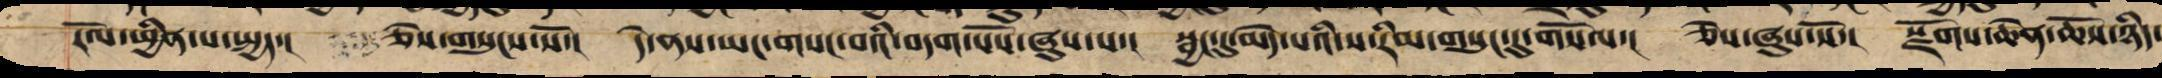རོལ་ཕྱིན་པ་སྤྱད་། ཅེས་གསུངས་སོ་། དེ་ནས་ཡང་གསང་བའི་བདག་པོས་ཞུས་པ་། སྦྱང་དུ་མེད་པའི་ས་རིམ་གསུང་དུ་གསོལ་། ཅེས་ཞུས་སོ་། སྫོགས་ཆེན་ཆོས་ཉིད་
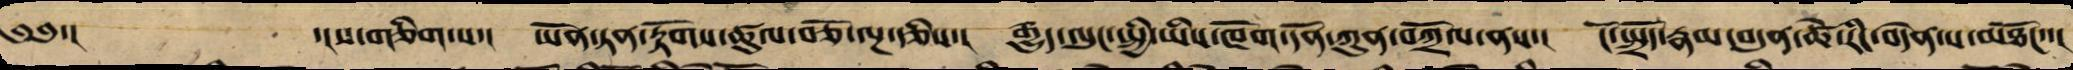༄༅་། ་།ས་གཅིག་པ་། ཡོན་ཏན་རྟོགས་ཚུལ་བཅོ་ལྔ་རྩིས་། རྒྱུད་ལུང་སྤྱི་ཡིས་ཁོག་དོན་ཀུན་བཀྲོལ་ནས་། ངོ་སྤྲོད་རྣམ་བདུན་ཚེ་རིང་བདེན་པ་མཐོང་་།
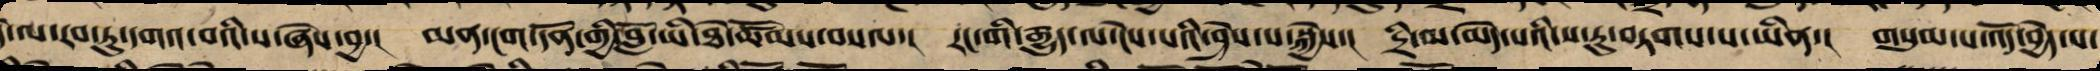དེ་ལ་རབ་ཏུ་དགའ་བའི་ས་ཞེས་བྱ་། མན་ངག་དོན་གྱི་བློ་ཡི་ཐེ་ཚོམས་བསལ་། རང་གི་རྒྱུད་ལ་ངེས་པའི་ཤེས་པ་སྐྱེས་། དྲི་མ་མེད་པའི་ས་རུ་བཏགས་པ་ཡིན་། གསུམ་པ་འོད་བྱེད་པ་
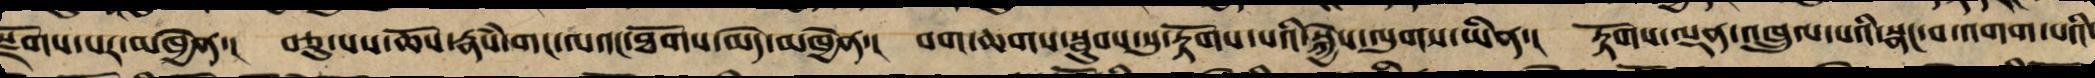སྫོགས་པར་མཁྱེན་། བཅུ་པ་ཆོས་རྣཾས་གང་ལའང་ཐོགས་མེད་མཁྱེན་། བག་ཆགས་སྦུབས་སུ་རྟོགས་པའི་སྐྱེས་ལུགས་ཡིན་། རྟོགས་ལྡན་འཁྲུལ་པའི་སྣང་བ་འགག་པའི་
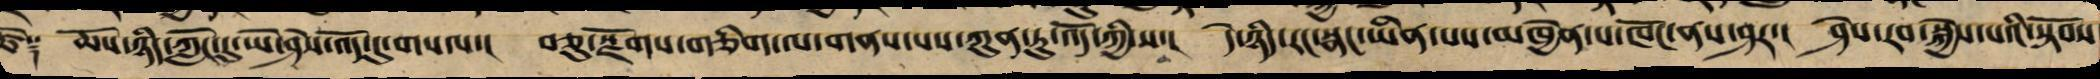ཚེ༑ ཆོས་ཉིད་ཀློང་དུ་ཡེ་ཤེས་འོད་དུ་གསལ་། བཅུ་སྫོགས་གཅིག་ལ་གནས་པས་ཀུན་ཏུ་འོད་ཀྱི་ས་། དེ་ཉིད་རང་སྣང་ཡིན་པས་མཁྱེན་པ་ཁོང་ནས་ཤར་། ཤེས་རབ་སྐྱེས་པའི་སྟོབས་
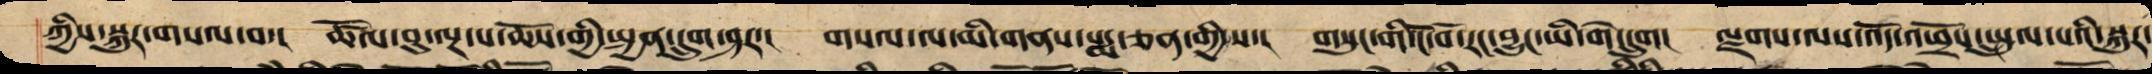ཀྱིས་སྐུར་གསལ་བ་། ཚོལ་བུ་ལྔ་པ་ཆོས་ཀྱི་སྤྱན་དྲུག་ཤར་། གསལ་ལ་མི་གནས་པདྨ་ཅན་གྱི་ས་། གསུང་གི་ངོ་བོ་རང་བྱུང་ཡི་གེ་དྲུག། ལྗགས་ལས་འོད་འཕྲོས་སྤྲུལ་པའི་སྐུར་
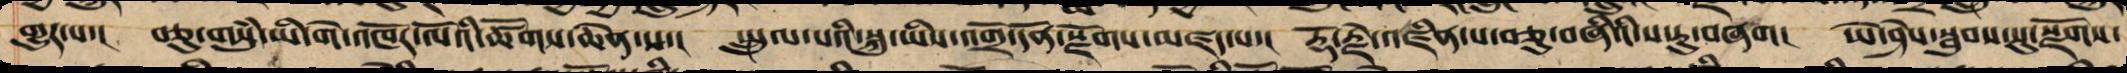གྱུར་པ་། བཅུ་གསུཾ་ཡི་གེ་འཁོར་ལོའི་ཚོགས་ཆེན་ས་། སྤྲུལ་པའི་སྐུ་ཡིས་འགྲོ་དོན་སྫོགས་མཛད་པ་། རྡོ་རྗེ་འཛིན་པ་བཅུ་བཞིའི་ས་རུ་བཞག། ཡེ་ཤེས་སྦུབས་སུ་སྫོགས་
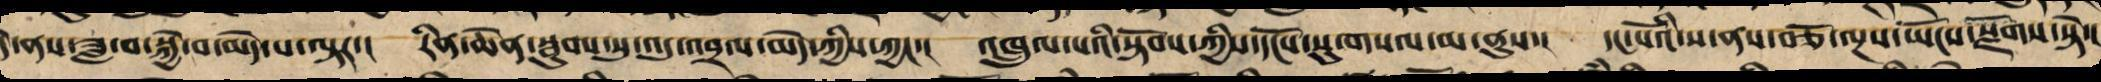དེ་ནས་ཟླ་བ་སྐྱེ་བ་མེད་པ་ལྟར་། རིན་ཆེན་སྦུབས་སུ་འདུ་འབྲལ་མེད་ཀྱིས་ཀྱང་། འཁྲུལ་པའི་སྟོབས་ཀྱིས་དངོས་སུ་གསལ་མ་ནུས་། དང་པོའི་ས་ནས་བཅོ་ལྔས་ཡོངས་སྫོགས་སྟེ་།
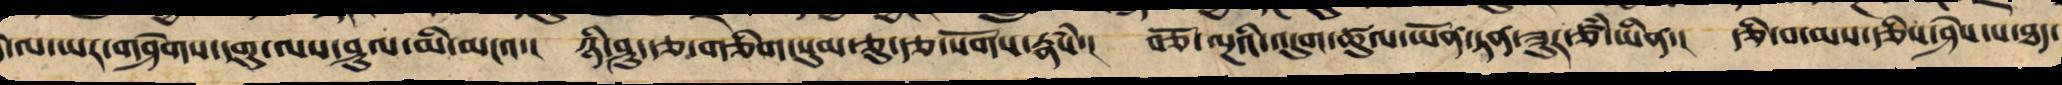་ལ་ཡར་གཤེགས་དགུ་ལས་ཤུལ་མི་མངའ་། ཉི་ཤུ་རྩ་གཅིག་སུམ་ཅུ་རྩ་སོགས་རྣཾས་། བཅོ་ལྔའི་འདུག་ཚུལ་ཡོན་ཏན་ཟུར་ཙཾ་ཡིན་། རྩི་བ་མས་རྩིས་ཤེས་པ་ཐད་
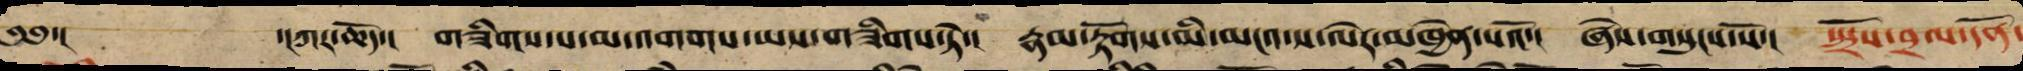༄༅་། ་།ཀར་ཆོད་། གཟིགས་པ་མ་འགགས་ཡས་གཟིགས་ཏེ་། རྣམ་རྟོགས་མི་མངའ་ས་ལེར་མཁྱེན་པའོ་། ཞེས་གསུངས་སོ་། སྤྲོས་བྲལ་དོན་
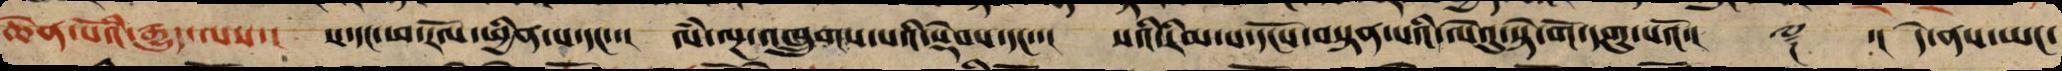ཆེན་པོའི་རྒྱུད་ལས་། ས་དང་ཕ་རོལ་ཕྱིན་པ་དང་་། ལཾ་ལྔ་འཁྲུགས་པའི་སྡེབས་དང་་། སའི་རིམ་པ་དངོས་བསྟན་པའི་ལེའུ་སྟེ་གོ་དགུ་པའོ་།། ༈ ་། དེ་ནས་ཡང་
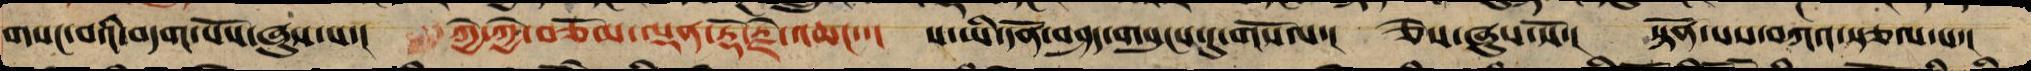གསང་བའི་བདག་པོས་ཞུས་པ་། ཀྱེ་ཀྱེ་བཅོམ་ལྡན་རྡོ་རྗེ་འཆང་་། ས་ཡི་དོན་བཤད་གསུངས་དུ་གསོལ་། ཅེས་ཞུས་སོ་། སྟོན་པས་བཀའ་སྩལ་པ་།
